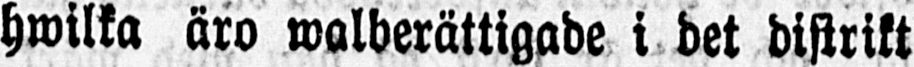hwilka äro walberättigade i det distrikt
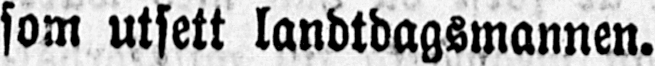som utsett landtdagsmannen.
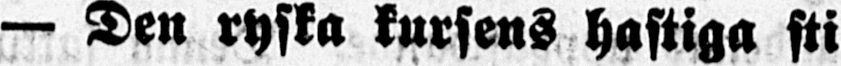— Den ryska kursens hastiga sti-
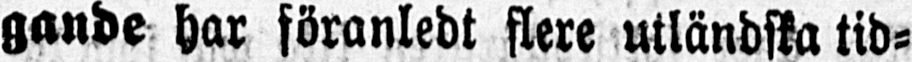gande har föranledt flere utländska tid-
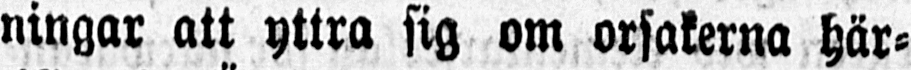ningar att yttra sig om orsakerna här-
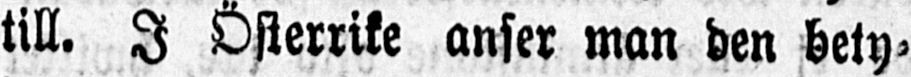till. I Österrike anser man den bety-
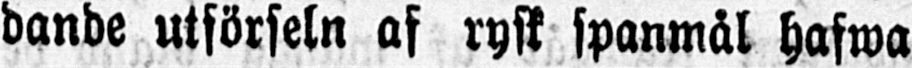dande utförseln af rysk spanmål hafwa
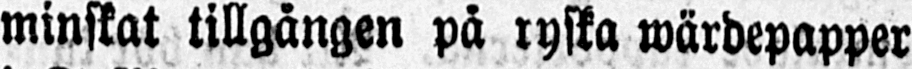minskat tillgången på ryska wärdepapper
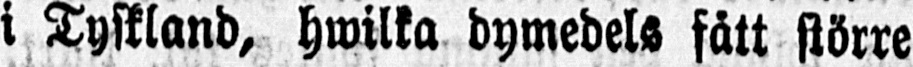i Tyskland, hwilka dymedels fått större
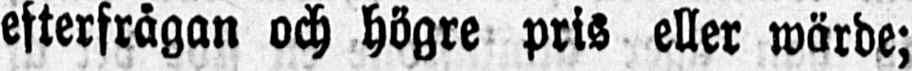efterfrågan och högre pris eller wärde;
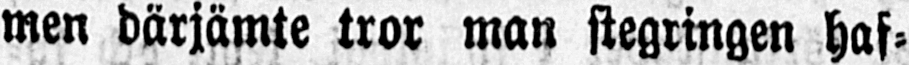men därjämte tror man stegringen haf-
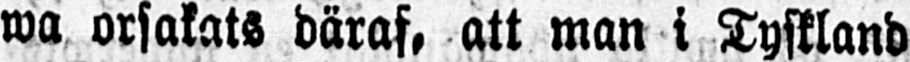wa orsakats däraf, att man i Tyskland
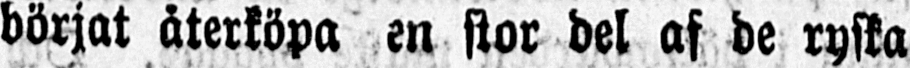börjat återköpa en stor del af de ryska
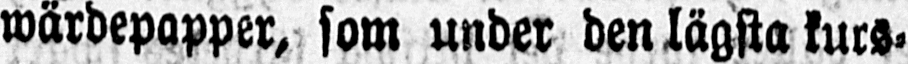wärdepapper, som under den lägsta kurs-
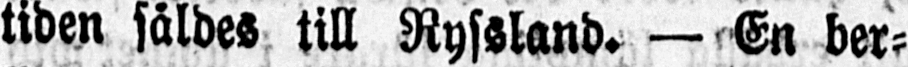tiden såldes till Ryssland. — En ber-
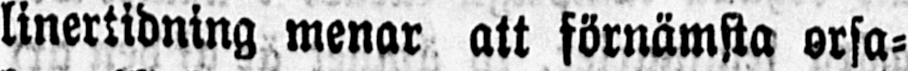linertidning menar att förnämsta orsa-
